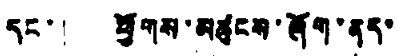དང་། ཕྱོགས་མཚུངས་ཞོག་ནད་
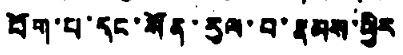བོག་པ་དང་སོན་རུལ་བ་རྣམས་ཕྱིར
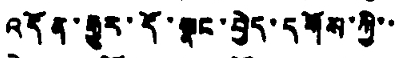འདོན་རྒྱུར་དོ་སྣང་བྱེད་དགོས་ཀྱི་་
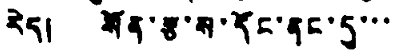རེད། སོན་རྩ་ས་དོང་ནང་དུ་་་
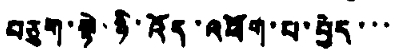བཅུག་སྟེ་ཉི་འོད་འཕོག་པ་བྱེད་་་
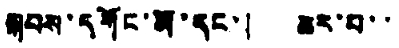སྐབས་དགོང་མོ་དང་། ཆར་བ་་
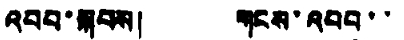འབབ་སྐབས། གངས་འབབ་་
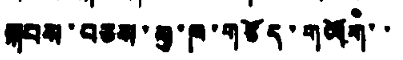སྐབས་བཅས་སུ་ཁ་གཅོད་གཡོག་་
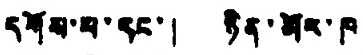དགོས་པ་དང་། ཉིན་མོར་ཁ
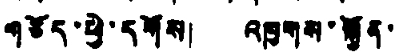གཅོད་ཕྱེ་དགོས། འཁྱགས་སྐྱོན་
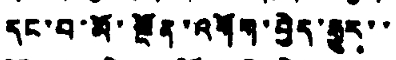དང་བ་མོ་སྔོན་འགོག་བྱེད་རྒྱུད་་
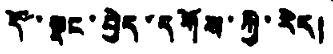དོ་སྣང་བྱེད་དགོས་ཀྱི་རེད།
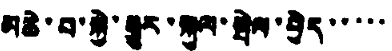མཆེ་བ་སྐྱེ་རྒྱུར་སྐུལ་སྤེལ་བྱེད་་་་་
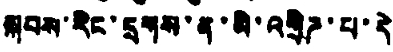སྐབས་རིང་དྲགས་ན་མི་འགྲིཌ་པ་དེ
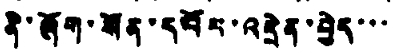ནི་ཞོག་སོན་དབོར་འདྲེན་བྱེད་་་
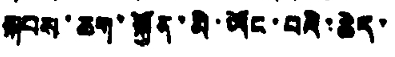སྐབས་ཆག་སྐྱོན་མི་ཡོང་བའི་ཆེད་
